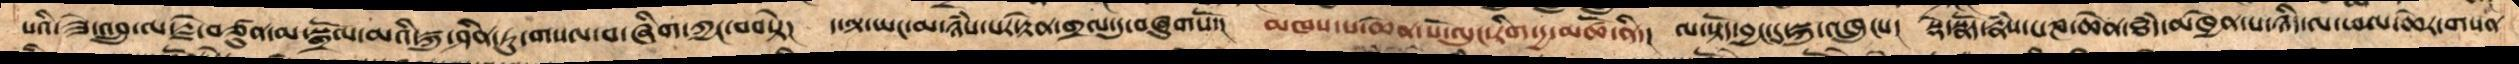པའི་ཟེ་འབྲུ་ལ་རྗེ་བཙུན་མ་སྒྲོལ་མའི་སྐུ་ཤིན་ཏུ་གསལ་བ་ཞིག་ཀྱང་བབསྟེ།  ད་ལྟ་ཡང་མ་ཉཾས་པར་རྟེན་གྲལ་དུ་བཞུགསོ་།  མཁས་པ་ཆེན་པོ་ལུང་རིག་དྱ་མཚོ་ནི།  ལ་སྟོད་བྱང་དུ་སྐུ་འཁྲུངས།  སྡེ་སྣོད་རྣཾས་པཎ་ཆེན་ཐཾད་མཁྱེན་པ་ཉིད་ལ་་ཕལ་ཆེར་་གསན་
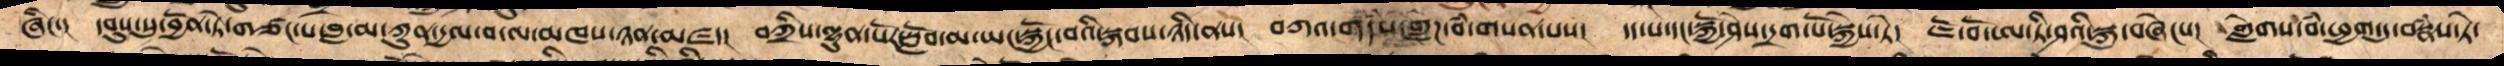ཞིང་།  དབུས་སུ་བྱོན་ཏེ་གཙང་པ་བླ་མ་ཀུན་དྱལ་བ་ལ་མཁས་ཉན་མཛད།  བཀྲིས་ལྷུན་པོར་སློབ་མ་སྐྱོང་བའི་སྐབས་ཉིད་ནས།  བཀའ་གདཾས་གླེཌ་བཾ་གསན་པས།  དད་པ་དང་སྐྱོ་ཤས་དྲག་པོ་སྐྱེས་ཏེ།  ཇོ་བོ་ཨ་ཏི་ཤའི་སྐུ་བཞེངས།  གླེགས་བཾ་ཕྱག་དུ་བསྣཾས་ཏེ་
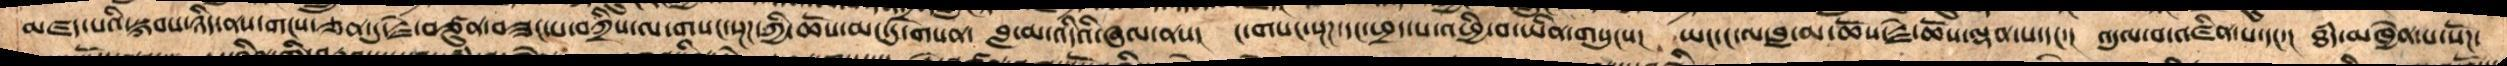མཛད་པའི་སྐབས་ཉིད་ནས་གངས་ཅན་དུ་རྗེ་བཙུན་བཟང་པ་བཀྲིས་ལ་གསང་སྔགས་ཀྱི་ཆོས་མང་དུ་གསན།  བླ་མ་འདིའི་ཞལ་ནས།  ང་གསང་སྔཌ་དང་ཕྲད་པ་འཕྱི་བ་ཡིན་གསུངས།  ཡང་ང་ལ་བླ་མ་ཆོས་རྗེ་ཆོས་ལྡན་པ་དང་།  འདུལ་བ་འཛིན་པ་དང་།  ཐཾད་མཁྱེན་པ་སོཌ་
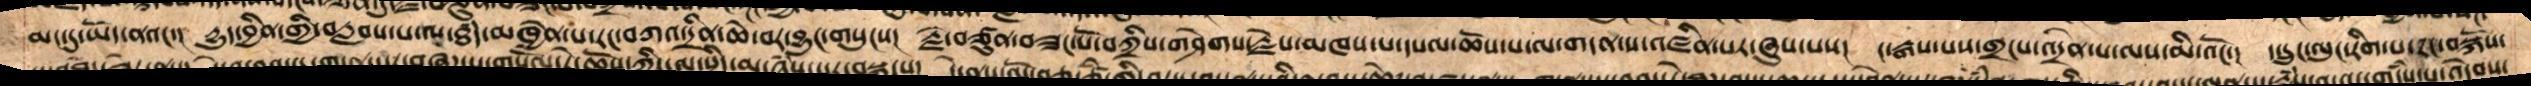མང་དུ་ཡོད་ནའང་། དྱུད་བྱིན་གྱི་བརླབས་པ་ལ་ཐཾད་མཁྱེན་པ་རང་བཀའ་དྲིན་ཆེ་བར་བྱུང་གསུངས། རྗེ་བཙུན་བཟང་པོ་བཀྲིས་གཤེགས་རྗེས་མཁས་པ་དཔལ་ཆོས་པ་ལ་གདན་ས་འཛིན་པར་ཞུས་པས། ང་རྒས་པས་གྲངས་འདྲེན་པ་ལས་མི་འོང་། ད་དྲུང་ལུང་རིག་པ་རང་བསྐོས་
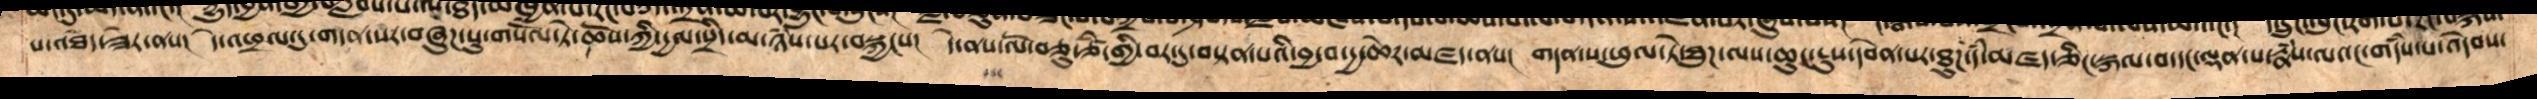པ་འཐེད་ཟེར་ནས།  དེ་འཕྲལ་དུ་གདན་སར་བཞུཌ་སུ་གསོལ་ཏེ་ཆོས་ཀྱི་དྱལ་སྲིད་མ་ཉཾས་པར་བསྐྱངས། དེ་ནས་ལོ་བཅུ་ཙཾ་གྱི་བར་དུ་བསྟན་པའི་བྱ་བ་དྱ་ཆེར་མཛད་ནས།  གདན་ས་ཕུལ་ཏེ་ཐུཌ་ལས་ཆུང་ངུས་དབེན་པར་ཐུཌ་དཾ་མཛད་ཅིང་སྐལ་བ་དང་ལྡན་པ་རྣཾས་ལ་གདཾས་པ་འདེབས་
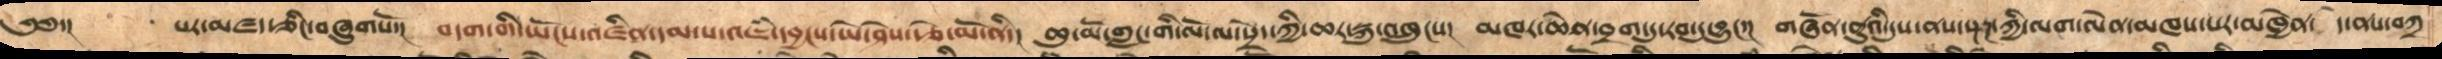༄༅་།     པར་མཛད་ཅིང་བཞུགསོ།  བདག་གི་ཡོངས་འཛིན་དམ་པ་འཇཾ་དབྱངས་ཡེ་ཤེས་རྩེ་མོ་ནི་།  ཆུ་མོ་གླང་གི་ལོ་ལ་སྲོད་ཀྱི་ཆར་སྐུ་འཁྲུངས།  མཁར་ཆེན་བྲག་དུ་རབ་ཏུ་བྱུང་།  གཞོན་ནུའི་དུས་ནས་སྔཌ་ཀྱི་ལག་ལེན་མཁས་པར་མཁྱེན།  དེ་ནས་བཀྲ་
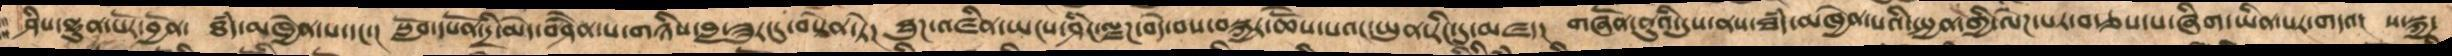ཤིས་ལྷུན་པོར་བྱོན།  ཐཾད་མཁྱེན་པ་དང་།  སློབ་དཔོན་དྲི་མེད་བཤཻན་པ་གཉིས་བླ་ཟུར་དུ་བསྟེན་ཏེ།  ཐུཌ་འཛིན་ཡངས་ཤིང་ལྗཌ་བདེ་བས་བསྐྱར་ཆོས་པའང་ཡུན་རིང་དུ་མཛད།  གཞོན་ནུའི་དུས་ནས་ཐཾད་མཁྱེན་པའི་སྤྱན་གྱི་ལེཌ་པར་བརྩས་པ་ཞིག་ཡིན་པར་གདའ།  ས་སྐྱ་
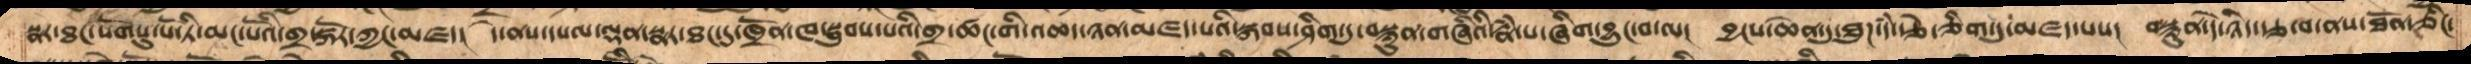སྣར་ཐང་སོགསུ་པོ་ཏི་མང་པོའི་གྲ་སྐོར་ཀྱང་མཛད།  དེ་ནས་དཔལ་ལྡན་སྣར་ཐང་དུ་ཁྲོན་ཁ་སྦུབས་པའི་གྲ་ཚང་གི་འཆད་ཉན་མཛད་པའི་སྐབས་ཤིག་དུ་བསྙུན་གཞིའི་རྣཾ་པ་ཞིག་བྱུང་བ་ལ།  བྱངས་ཆེན་དུ་ཐུཌ་དཾ་རྩེ་ཅིག་དུ་མཛད་པས།  བསྙུན་དེ་ཉིད་རྩ་བ་ནས་ཐོན་ཅིང་
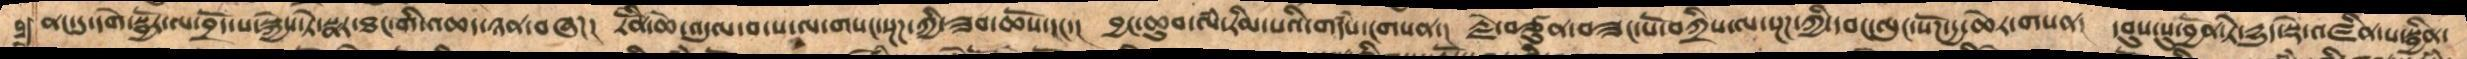ནང་དུ་དགེ་སྦྱོར་ལ་བྲོད་པ་སྐྱེས་ཏེ་སྣར་ཐང་གི་འཆད་ཉན་བཞཌ།  རིནོ་ཆེ་འདུལ་བ་པ་ལ་གསང་སྔཌ་ཀྱི་ཟབ་ཆོས་དང་།  བྱང་ཆུབ་ལཾ་རིམ་པའི་གདཾས་ངགསན།  རྗེ་བཙུན་བཟང་པོ་བཀྲིས་ལ་སྔཌ་ཀྱི་དབང་ལུང་སོཌ་དྱ་ཆེར་གསན།  དབུས་སུ་བྱོན་ཏེ་དྱུད་སྡེ་འཛིན་པ་སྦྱིན་
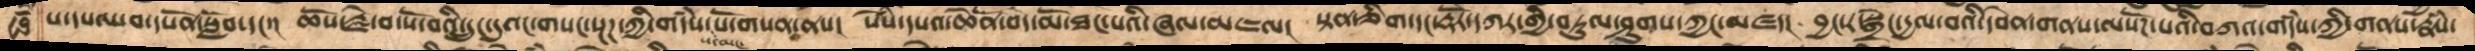པ་དཔལ་བ་དཔོན་སློབ་དང་། ཆོས་རྗེ་བ་སོ་བའི་དྲུང་དུའང་གསང་སྔཌ་ཀྱི་གདཾས་པ་མང་པོ་གསན་ནས། སེཾས་དཔའ་ཆེནོ་བདེ་མོ་ཐང་པའི་ཞལ་མཇལ། སྟན་ཅིག་དང་རྡོར་དཀར་གྱི་བརྟུལ་ཤུགས་ཀྱང་མཛད།  བྱང་ར་སྒྲེང་དྱལ་བའི་དབེན་གནས་ལསོཌ་པའི་བཀའ་གདཾས་ཀྱི་གནས་རྣཾས་
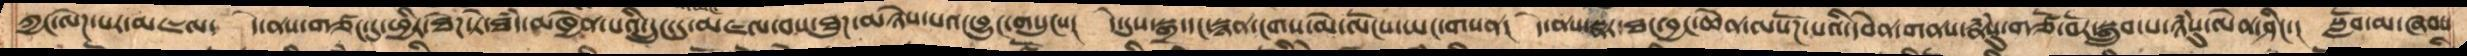ཀྱང་ལེཌ་པར་མཇལ།  དེ་ནས་གཙང་དུ་ཕྱིར་ཐོཌ་ཏེ་ཐཾད་མཁྱེན་པའི་དྲུང་དུ་མཇལ་བས་ཐུཌ་མཉེས་པའ་བྱུང་གསུངས།  དེ་དུས་སྒྲ་དང་སྙན་ངགས་མེ་ལོངས་ཡང་གསན།  དེ་ནས་སྣར་ཐང་བྱང་ཆེན་ལསོཌ་པའི་དབེན་གནས་རྣཾསུ་གཙོ་བོར་སྒྲུབ་པ་ཉཾསུ་ལེན་ཤིང་།  སློབ་མ་ཞབས
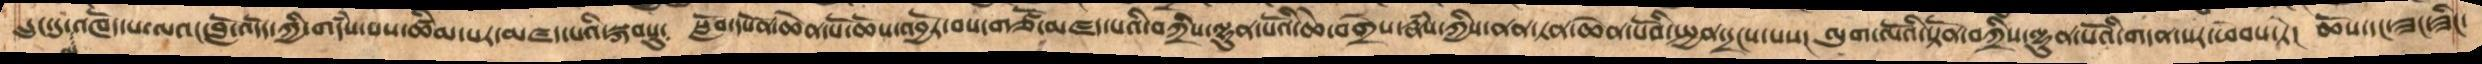དྲུང་དུ་འཁོད་པ་ལའང་བློ་འདོད་ཀྱི་གདཾས་བས་ཚིམ་པར་མཛད་པའི་སྐབསུ།  སློབ་དཔོན་ཆེན་པོ་ཆོས་འབྱོར་བས་གཙོ་མཛད་པའི་བཀྲིས་ལྷུནཔོའི་ཆེ་བགྲེས་རྣཾས་ཀྱིས་ནན་ཏན་ཆེན་པོའི་སྤྱན་དྲངས་པས།  ལུག་ལོའི་སྟོན་བཀྲིས་ལྷུན་པོའི་གདན་སར་ཕེབས་ཏེ།  ཆོས་དང་ཟང་ཟིང་
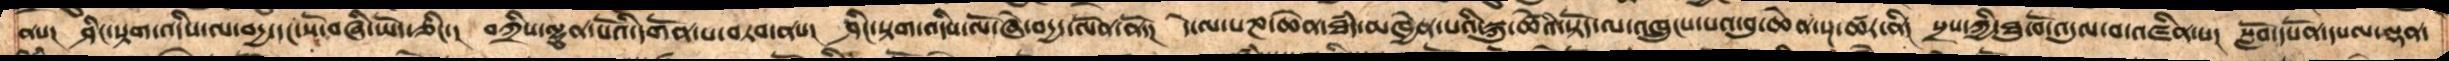ནས།  ཤིང་སྟག་འདིས་ལ་བདྱ་དང་སོ་བཞི་སོང་ཅིང་།  བཀྲིས་ལྷུན་པོའི་དགོན་པ་བཏབ་ནས།  ཤིང་སྟག་འདིས་ལོ་ཞེ་བདྱད་ལོན་ནོ།  དེ་ལ་པཎ་ཆེན་ཐཾད་མཁྱེན་པའི་སྐུ་ཚེའི་སྟོད་ལ་འཁྲུངས་པའ་བུ་ཆེན་སྔ་ཚར་ནི།  སྲས་ཀྱི་ཐུ་བོ་འདུལ་བ་འཛིན་པ།  སློབ་དཔོན་དཔལ་ལྡན་
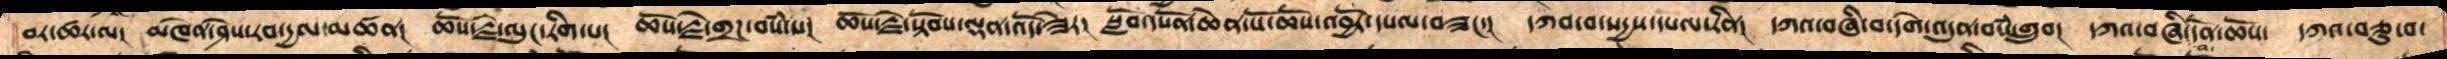བར་ཚར་ལ།  མཁེན་ཤེས་རབ་དྱལ་མཚན།  ཆོས་རྗེ་ལུང་རིག་པ།  ཆོས་རྗེ་གྲཌ་བསཾ་པ།  ཆོས་རྗེ་སྟོབས་ལྡན་འོད་ཟེར།  སློབ་དཔོན་ཆེན་པོ་ཆོས་འབྱོར་དཔལ་བཟང་།  དཀའ་བ་སདྱས་དཔལ་རིན།  དཀའ་བཞི་བ་དགེ་འདུན་བསཾ་གྲུབ།  དཀའ་བཞི་བ་དོན་ཆོས།  དཀའ་བཅུ་བ་
